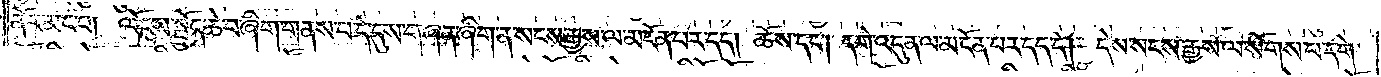ནོར་མང་བ། ལོངས་སྤྱོད་ཆེ་བ་ཞིག་གནས་པ་དེ་དུས་གཞན་ཞིག་ན་སངས་རྒྱས་ལ་མངོན་པར་དད། ཆོས་དང༌། དགེ་འདུན་ལ་མངོན་པར་དད་དེ། དེས་སངས་རྒྱས་ལ་སོགས་པ་དགེ་
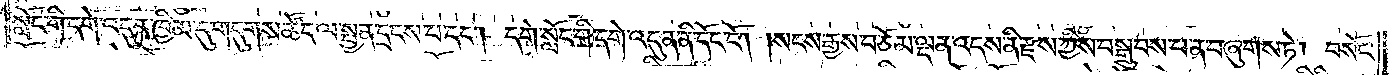སློང་གི་དགེ་འདུན་ཁྱིམ་དུ་གདུགས་ཚོང་ལ་སྤྱན་དྲངས་པ་དང༌། དགེ་སློང་གི་དགེ་འདུན་ནི་དོང་ངོ༌། །སངས་རྒྱས་བཅོམ་ལྡན་འདས་ནི་རྫས་ཀྱིས་བསྒྲུབས་པ་ན་བཞུགས་ཏེ། བསོད་
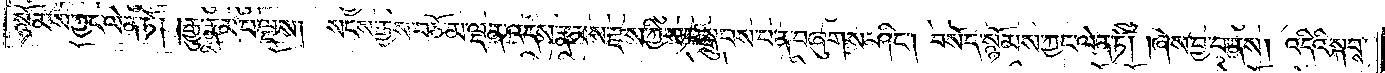སྙོམས་ཀྱང་ལེན་ཏོ། །རྒྱུ་རྣམ་པ་ལྔས། སངས་རྒྱས་བཅོམ་ལྡན་འདས་རྣམས་རྫས་ཀྱིས་བསྒྲུབས་པ་ན་བཞུགས་ཤིང༌། བསོད་སྙོམས་ཀྱང་ལེན་ཏོ། །ཞེས་བྱ་བ་ནས། འདིའི་སྐབས་
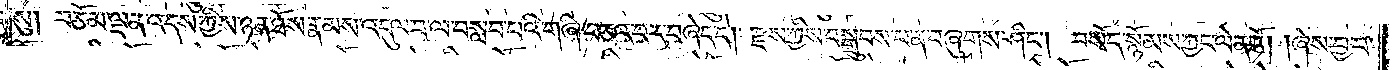སུ། བཅོམ་ལྡན་འདས་ཀྱིས་ཉན་ཐོས་རྣམས་འདུལ་བ་ལ་བསླབ་པའི་གཞི་བཅའ་བར་བཞེད་དེ། རྫས་ཀྱིས་བསྒྲུབས་པ་ན་བཞུགས་ཤིང༌། བསོད་སྙོམས་ཀྱང་ལེན་ཏོ། །ཞེས་བྱ་བ་
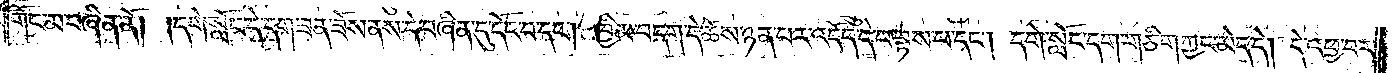གོང་མ་བཞིན་ནོ། །དགེ་སློང་དེ་དག་ཟན་ཟོས་ནས་དེ་བཞིན་དུ་དོང་བ་དང༌། ཁྱིམ་བདག་དེ་ཆོས་ཉན་པར་འདོད་དེ་བལྟས་པ་དང༌། དགེ་སློང་དག་གཅིག་ཀྱང་མེད་དེ། དེ་འཕྱ་བར་
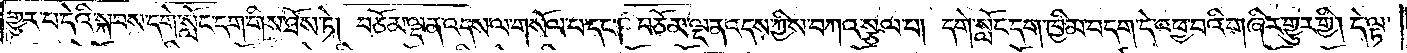གྱུར་པ་དེའི་སྐབས་དགེ་སློང་དག་གིས་ཐོས་ཏེ། བཅོམ་ལྡན་འདས་ལ་གསོལ་པ་དང༌། བཅོམ་ལྡན་འདས་ཀྱིས་བཀའ་སྩལ་པ། དགེ་སློང་དག་ཁྱིམ་བདག་དེ་འཕྱ་བའི་གཞིར་གྱུར་གྱི། དེ་ལྟ་
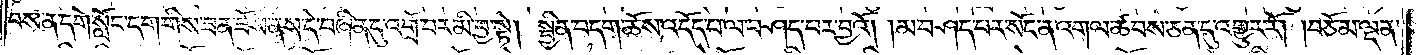བས་ན་དགེ་སློང་ངག་གིས་ཟན་ཟོས་ནས་དེ་བཞིན་དུ་འགྲོ་བར་མི་བྱ་སྟེ། སྦྱིན་བདག་ཆོས་འདོད་པ་ལ་བཤད་པར་བྱའོ། །མ་བཤད་པར་སོང་ན་འགལ་ཚབས་ཅན་དུ་འགྱུར་རོ། །བཅོམ་ལྡན་
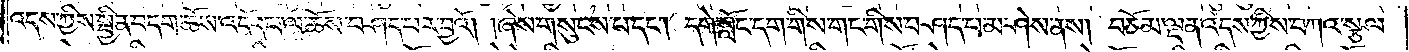འདས་ཀྱིས་སྦྱིན་བདག་ཆོས་འདོད་པ་ལ་ཆོས་བཤད་པར་བྱའོ། །ཞེས་གསུངས་པ་དང༌། དགེ་སློང་དག་གིས་གང་གིས་བཤད་པ་མ་ཤེས་ནས། བཅོམ་ལྡན་འདས་ཀྱིས་བཀའ་སྩལ་
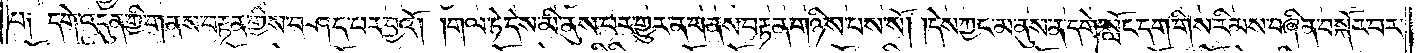པ༑ དགེ་འདུན་གྱི་གནས་བརྟན་གྱིས་བཤད་པར་བྱའོ། །གལ་ཏེ་དེས་མི་ནུས་པར་གྱུར་ན་གནས་བརྟན་གཉིས་པས་སོ། །དེས་ཀྱང་མ་ནུས་ན་དགེ་སློང་དག་གིས་རིམས་བཞིན་བསྐོར་བར་
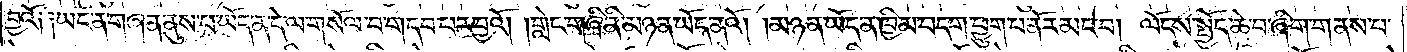བྱའོ༑ ༑ཡང་ན་གཞན་ནུས་པ་ཡོད་ན་དེ་ལ་གསོལ་བ་གདབ་པར་བྱའོ། །གླེང་གཞི་ནི་མཉན་ཡོད་ནའོ། །མཉན་ཡོད་ན་ཁྱིམ་བདག་ཕྱུག་པ་ནོར་མང་བ། ལོངས་སྤྱོད་ཆེ་བ་ཞིག་གནས་པ་
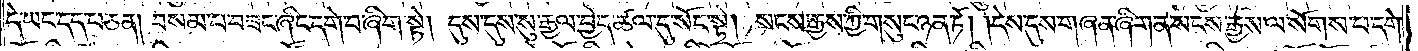དེ་ཡང་དད་པ་ཅན། བསམ་པ་བཟང་ཞིང་དགེ་བ་ཞིག་སྟེ། དུས་དུས་སུ་རྒྱལ་བྱེད་ཚལ་དུ་སོང་སྟེ། སངས་རྒྱས་ཀྱི་གསུང་ཉན་ཏོ། །དེས་དུས་གཞན་ཞིག་ན་སངས་རྒྱས་ལ་སོགས་པ་དགེ་
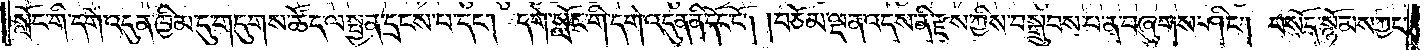སློང་གི་དགེ་འདུན་ཁྱིམ་དུ་གདུགས་ཚོད་ལ་སྤྱན་དྲངས་པ་དང༌། དགེ་སློང་གི་དགེ་འདུན་ནི་དོང་ངོ༌། །བཅོམ་ལྡན་འདས་ནི་རྫས་ཀྱིས་བསྒྲུབས་པ་ན་བཞུགས་ཤིང༌། བསོད་སྙོམས་ཀྱང་
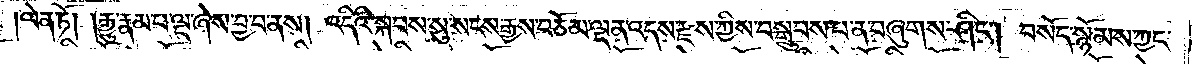ལེན་ཏོ། །རྒྱུ་རྣམ་པ་ལྔ་ཞེས་བྱ་བ་ནས། འདིའི་སྐབས་སུ་སངས་རྒྱས་བཅོམ་ལྡན་འདས་རྫས་ཀྱིས་བསྒྲུབས་པ་ན་བཞུགས་ཤིང༌། བསོད་སྙོམས་ཀྱང་
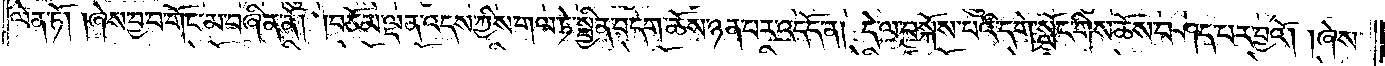ལེན་ཏོ། །ཞེས་བྱ་བ་གོང་མ་བཞིན་ནོ། །བཅོམ་ལྡན་འདས་ཀྱིས་གལ་ཏེ་སྦྱིན་བདག་ཆོས་ཉན་པར་འདོད་ན། དེ་ལ་བསྐོས་པའི་དགེ་སློང་གིས་ཆོས་བཤད་པར་བྱའོ། །ཞེས་
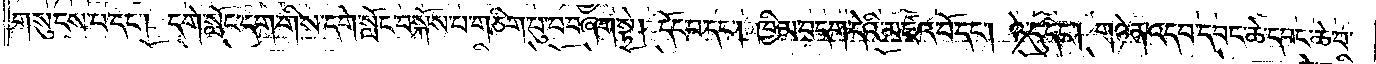གསུངས་པ་དང༌། དགེ་སློང་དག་གིས་དགེ་སློང་བསྐོས་པ་གཅིག་པུ་བ་བཞག་སྟེ། དོང་བ་དང༌། ཁྱིམ་བདག་དེའི་མཛའ་བོ་དང༌། ཉེ་དུ་དང༌། གཉེན་འདབ་དབང་ཆེ་དབང་ཆེ་བ་
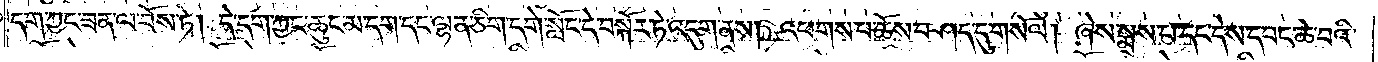དག་ཀྱང་ཟན་ལ་བོས་ཏེ། དེ་དག་ཀྱང་ཆུང་མ་དག་དང་ལྷན་ཅིག་དགེ་སློང་དེ་བསྐོར་ཏེ་འདུག་ནས། འཕགས་པ་ཆོས་བཤད་དུ་གསོལ། ཞེས་སྨྲས་པ་དང་དེས་དབང་ཆེ་བའི་
